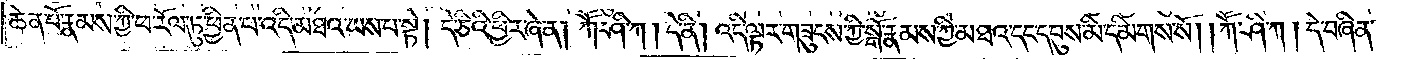ཆེན་པོ་རྣམས་ཀྱི་ཕ་རོལ་ཏུ་ཕྱིན་པ་འདི་མཐའ་ཡས་པ་སྟེ། དེ་ཅིའི་ཕྱིར་ཞེ་ན། ཀཽ་ཤི་ཀ། དེ་ནི། འདི་ལྟར་གཟུངས་ཀྱི་སྒོ་རྣམས་ཀྱི་མཐའ་དང་དབུས་མི་དམིགས་སོ། །ཀཽ་ཤི་ཀ །དེ་བཞིན་
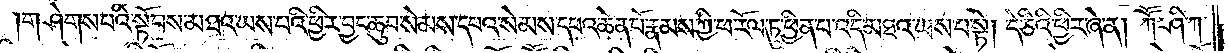གཤེགས་པའི་སྟོབས་མཐའ་ཡས་པའི་ཕྱིར་བྱང་ཆུབ་སེམས་དཔའ་སེམས་དཔའ་ཆེན་པོ་རྣམས་ཀྱི་ཕ་རོལ་ཏུ་ཕྱིན་པ་འདི་མཐའ་ཡས་པ་སྟེ། དེ་ཅིའི་ཕྱིར་ཞེ་ན། ཀཽ་ཤི་ཀ་
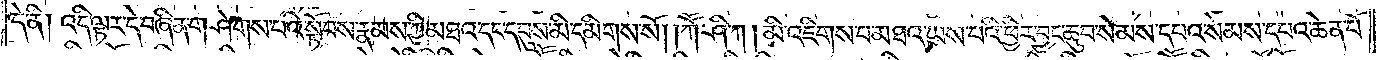དེ་ནི། འདི་ལྟར་དེ་བཞིན་གཤེགས་པའི་སྟོབས་རྣམས་ཀྱི་མཐའ་དང་དབུས་མི་དམིགས་སོ། །ཀཽ་ཤི་ཀ། མི་འཇིགས་པ་མཐའ་ཡས་པའི་ཕྱིར་བྱང་ཆུབ་སེམས་དཔའ་སེམས་དཔའ་ཆེན་པོ་
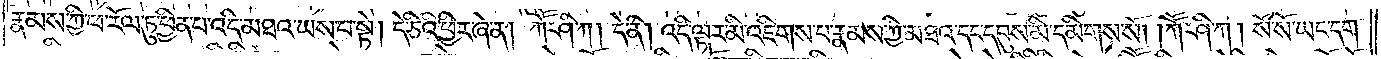རྣམས་ཀྱི་ཕ་རོལ་ཏུ་ཕྱིན་པ་འདི་མཐའ་ཡས་པ་སྟེ། དེ་ཅིའི་ཕྱིར་ཞེ་ན། ཀཽ་ཤི་ཀ། དེ་ནི། འདི་ལྟར་མི་འཇིགས་པ་རྣམས་ཀྱི་མཐའ་དང་དབུས་མི་དམིགས་སོ། །ཀཽ་ཤི་ཀ། སོ་སོ་ཡང་དག་
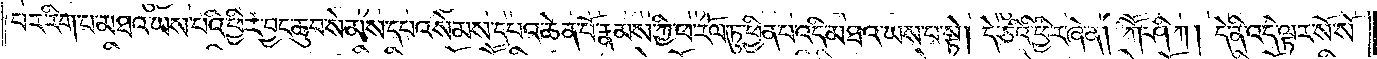པར་རིག་པ་མཐའ་ཡས་པའི་ཕྱིར་བྱང་ཆུབ་སེམས་དཔའ་སེམས་དཔའ་ཆེན་པོ་རྣམས་ཀྱི་ཕ་རོལ་ཏུ་ཕྱིན་པ་འདི་མཐའ་ཡས་པ་སྟེ། དེ་ཅིའི་ཕྱིར་ཞེ་ན། ཀཽ་ཤི་ཀ། དེ་ནི་འདི་ལྟར་སོ་སོ་
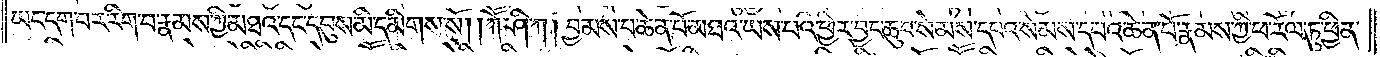ཡང་དག་པར་རིག་པ་རྣམས་ཀྱི་མཐའ་དང་དབུས་མི་དམིགས་སོ༎ ཀཽ་ཤི་ཀ། བྱམས་པ་ཆེན་པོ་མཐའ་ཡས་པའི་ཕྱིར་བྱང་ཆུབ་སེམས་དཔའ་སེམས་དཔའ་ཆེན་པོ་རྣམས་ཀྱི་ཕ་རོལ་ཏུ་ཕྱིན་
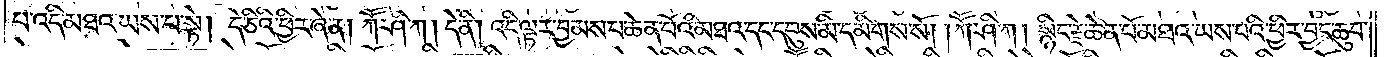པ་འདི་མཐའ་ཡས་པ་སྟེ། དེ་ཅིའི་ཕྱིར་ཞེ་ན། ཀཽ་ཤི་ཀ། དེ་ནི། འདི་ལྟར་བྱམས་པ་ཆེན་པོའི་མཐའ་དང་དབུས་མི་དམིགས་སོ། །ཀཽ་ཤི་ཀ། སྙིང་རྗེ་ཆེན་པོ་མཐའ་ཡས་པའི་ཕྱིར་བྱང་ཆུབ་
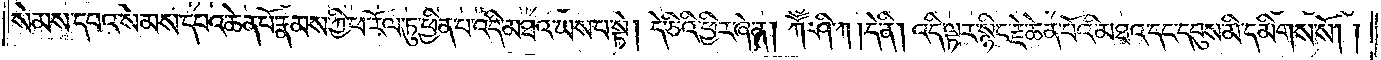སེམས་དཔའ་སེམས་དཔའ་ཆེན་པོ་རྣམས་ཀྱི་ཕ་རོལ་ཏུ་ཕྱིན་པ་འདི་མཐའ་ཡས་པ་སྟེ། དེ་ཅིའི་ཕྱིར་ཞེ་ན། ཀཽ་ཤི་ཀ། དེ་ནི། འདི་ལྟར་སྙིང་རྗེ་ཆེན་པོའི་མཐའ་དང་དབུས་མི་དམིགས་སོ། །
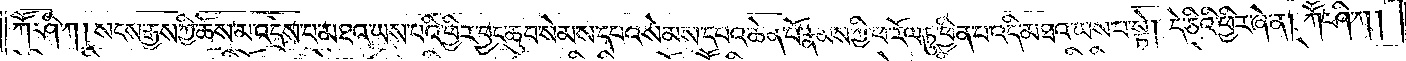ཀཽ་ཤི་ཀ། སངས་རྒྱས་ཀྱི་ཆོས་མ་འདྲེས་པ་མཐའ་ཡས་པའི་ཕྱིར་བྱང་ཆུབ་སེམས་དཔའ་སེམས་དཔའ་ཆེན་པོ་རྣམས་ཀྱི་ཕ་རོལ་ཏུ་ཕྱིན་པ་འདི་མཐའ་ཡས་པ་སྟེ། དེ་ཅིའི་ཕྱིར་ཞེ་ན། ཀཽ་ཤི་ཀ།
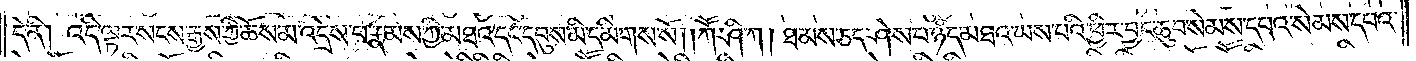དེ་ནི། འདི་ལྟར་སངས་རྒྱས་ཀྱི་ཆོས་མ་འདྲེས་པ་རྣམས་ཀྱི་མཐའ་དང་དབུས་མི་དམིགས་སོ། །ཀཽ་ཤི་ཀ། ཐམས་ཅད་ཤེས་པ་ཉིད་མཐའ་ཡས་པའི་ཕྱིར་བྱང་ཆུབ་སེམས་དཔའ་སེམས་དཔའ་
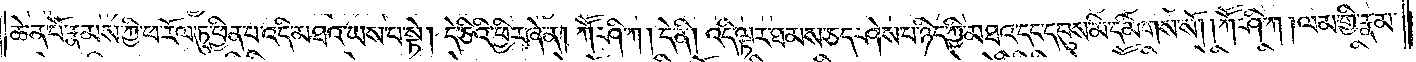ཆེན་པོ་རྣམས་ཀྱི་ཕ་རོལ་ཏུ་ཕྱིན་པ་འདི་མཐའ་ཡས་པ་སྟེ། དེ་ཅིའི་ཕྱིར་ཞེ་ན། ཀཽ་ཤི་ཀ། དེ་ནི། འདི་ལྟར་ཐམས་ཅད་ཤེས་པ་ཉིད་ཀྱི་མཐའ་དང་དབུས་མི་དམིགས་སོ། །ཀཽ་ཤི་ཀ། ལམ་གྱི་རྣམ་
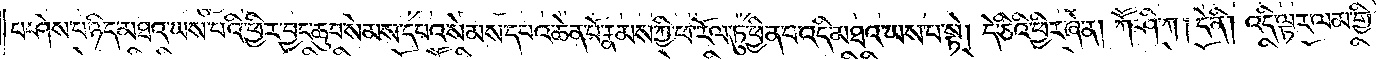པ་ཤེས་པ་ཉིད་མཐའ་ཡས་པའི་ཕྱིར་བྱང་ཆུབ་སེམས་དཔའ་སེམས་དཔའ་ཆེན་པོ་རྣམས་ཀྱི་ཕ་རོལ་ཏུ་ཕྱིན་པ་འདི་མཐའ་ཡས་པ་སྟེ། དེ་ཅིའི་ཕྱིར་ཞེ་ན། ཀཽ་ཤི་ཀ། དེ་ནི། འདི་ལྟར་ལམ་གྱི་
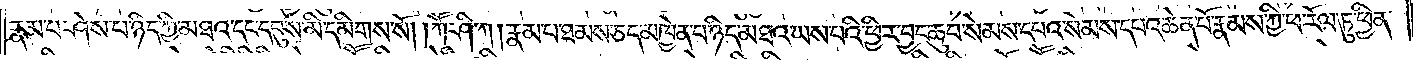རྣམ་པ་ཤེས་པ་ཉིད་ཀྱི་མཐའ་དང་དབུས་མི་དམིགས་སོ། །ཀཽ་ཤི་ཀ། རྣམ་པ་ཐམས་ཅད་མཁྱེན་པ་ཉིད་མཐའ་ཡས་པའི་ཕྱིར། བྱང་ཆུབ་སེམས་དཔའ་སེམས་དཔའ་ཆེན་པོ་རྣམས་ཀྱི་ཕ་རོལ་ཏུ་ཕྱིན་
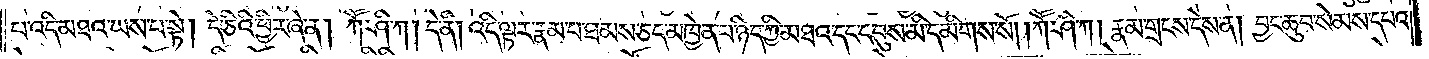པ་འདི་མཐའ་ཡས་པ་སྟེ། དེ་ཅིའི་ཕྱིར་ཞེ་ན། ཀཽ་ཤི་ཀ། དེ་ནི། འདི་ལྟར་རྣམ་པ་ཐམས་ཅད་མཁྱེན་པ་ཉིད་ཀྱི་མཐའ་དང་དབུས་མི་དམིགས་སོ། །ཀཽ་ཤི་ཀ། རྣམ་གྲངས་དེས་ན། བྱང་ཆུབ་སེམས་དཔའ་
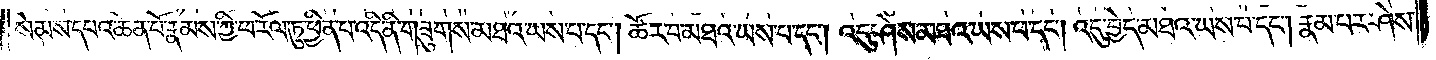སེམས་དཔའ་ཆེན་པོ་རྣམས་ཀྱི་ཕ་རོལ་ཏུ་ཕྱིན་པ་འདི་ནི་གཟུགས་མཐའ་ཡས་པ་དང༌། ཚོར་བ་མཐའ་ཡས་པ་དང༌། འདུ་ཤེས་མཐའ་ཡས་པ་དང༌། འདུ་བྱེད་མཐའ་ཡས་པ་དང༌། རྣམ་པར་ཤེས་
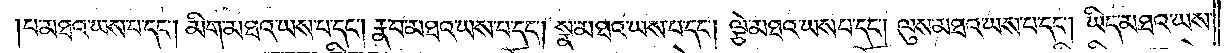པ་མཐའ་ཡས་པ་དང༌། མིག་མཐའ་ཡས་པ་དང༌། རྣ་བ་མཐའ་ཡས་པ་དང༌། སྣ་མཐའ་ཡས་པ་དང༌། ལྕེ་མཐའ་ཡས་པ་དང༌། ལུས་མཐའ་ཡས་པ་དང༌། ཡིད་མཐའ་ཡས་
